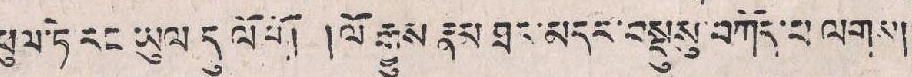ཕུལ་ཏེ རང ཡུལ དུ ལོགོ། །ལོ་རྒྱུས རྣམ ཐར་མདར་བསྡུསུ་བཀོད་པ་ལགས།།
